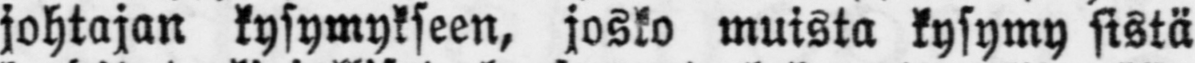johtajan kysymykseen, josko muista kysymy sistä
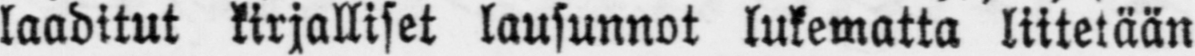laaditut kirjalliset lausunnot lukematta liitetään
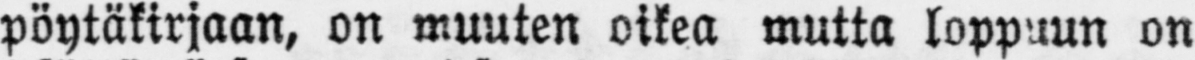pöytäkirjaan, on muuten oikea mutta loppuun on
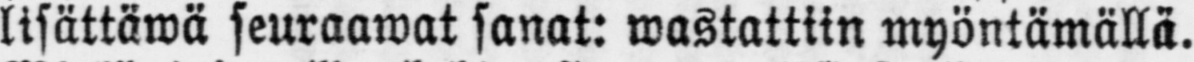lisättäwä seuraawat sanat: wastattiin myöntämällä.
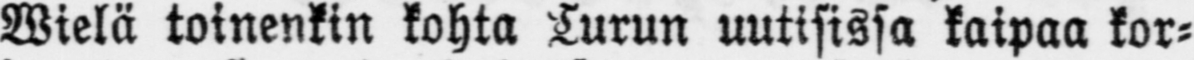Wielä toinenkin kohta Turun uutisissa kaipaa kor-
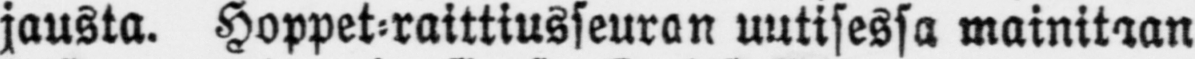jausta. Hoppet-raittiusseuran uutisessa mainitaan
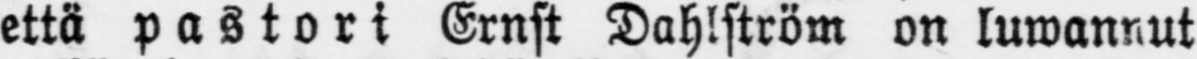että pastori Ernst Dahlström on luwannut
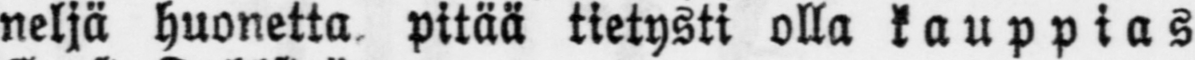neljä huonetta pitää tietysti olla kauppias
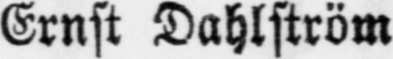Ernst Dahlström
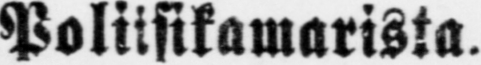Poliisikamarista.
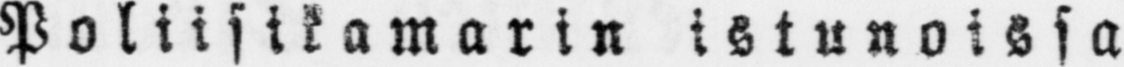Poliisikamarin istunoissa
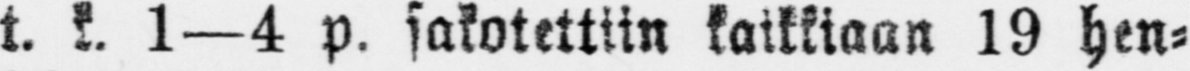t. k. 1—4 p. sakotettiin kaikkiaan 19 hen-
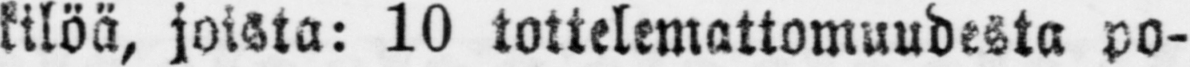kilöä, joista: 10 tottelemattomuudesta po-
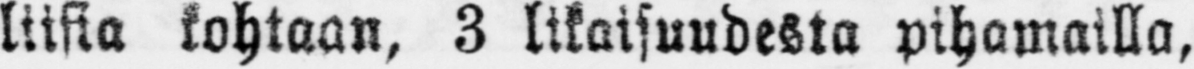liisia kohtaan, 3 likaisuudesta pihamailla,
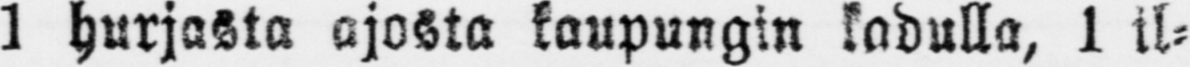1 hurjasta ajosta kaupungin kadulla, 1 il-
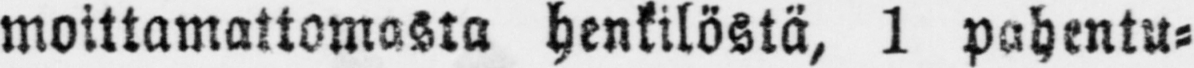moittamattomasta henkilöstä, 1 pahentu-
